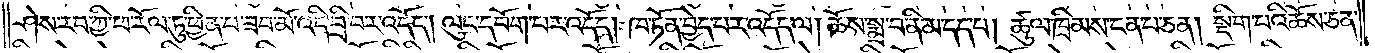ཤེས་རབ་ཀྱི་ཕ་རོལ་ཏུ་ཕྱིན་པ་ཟབ་མོ་འདི་བྲི་བར་འདོད། ལུང་དབོག་པར་འདོད། ཁ་ཏོན་བྱེད་པར་འདོད་ལ། ཆོས་སྨྲ་བ་ནི་མ་དད་པ། ཚུལ་ཁྲིམས་ངན་པ་ཅན། སྡིག་པའི་ཆོས་ཅན་
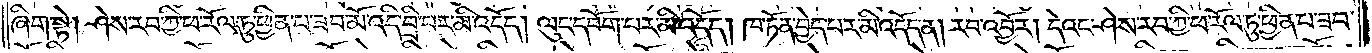ཞིག་སྟེ། ཤེས་རབ་ཀྱི་ཕ་རོལ་ཏུ་ཕྱིན་པ་ཟབ་མོ་འདི་བྲི་བར་མི་འདོད། ལུང་དབོག་པར་མི་འདོད། ཁ་ཏོན་བྱེད་པར་མི་འདོད་ན། རབ་འབྱོར། དེའང་ཤེས་རབ་ཀྱི་ཕ་རོལ་ཏུ་ཕྱིན་པ་ཟབ་
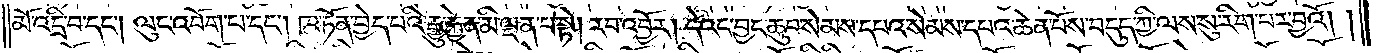མོ་འདྲི་བ་དང༌། ལུང་འབོག་པ་དང༌། ཁ་ཏོན་བྱེད་པའི་རྒྱུ་རྐྱེན་མི་ལྡན་པ་སྟེ། རབ་འབྱོར། དེའང་བྱང་ཆུབ་སེམས་དཔའ་སེམས་དཔའ་ཆེན་པོས་བདུད་ཀྱི་ལུས་སུ་རིག་པར་བྱའོ། །
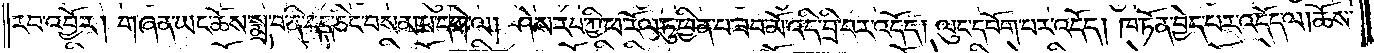རབ་འབྱོར། གཞན་ཡང་ཆོས་སྨྲ་བ་ནི་དད་ཅིང་བསམ་པ་དགེ་ལ། ཤེས་རབ་ཀྱི་ཕ་རོལ་ཏུ་ཕྱིན་པ་ཟབ་མོ་འདི་བྲི་བར་འདོད། ལུང་དབོག་པར་འདོད། ཁ་ཏོན་བྱེད་པར་འདོད་ལ། ཆོས་
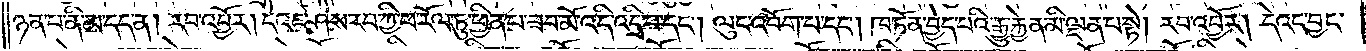ཉན་པ་ནི་མ་དད་ན། རབ་འབྱོར། དེའང་ཤེས་རབ་ཀྱི་ཕ་རོལ་ཏུ་ཕྱིན་པ་ཟབ་མོ་འདི་འདྲི་བ་དང༌། ལུང་འབོག་པ་དང༌། ཁ་ཏོན་བྱེད་པའི་རྒྱུ་རྐྱེན་མི་ལྡན་པ་སྟེ། རབ་འབྱོར། དེའང་བྱང་
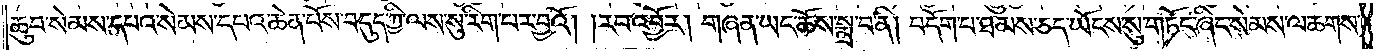ཆུབ་སེམས་དཔའ་སེམས་དཔའ་ཆེན་པོས་བདུད་ཀྱི་ལས་སུ་རིག་པར་བྱའོ། །རབ་འབྱོར། གཞན་ཡང་ཆོས་སྨྲ་བ་ནི། བདོག་པ་ཐམས་ཅད་ཡོངས་སུ་གཏོང་ཞིང་སེམས་ལ་ཆགས་
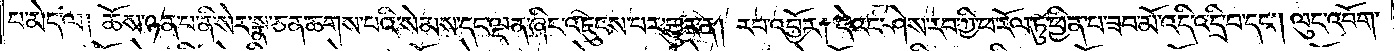པ་མེད་ལ། ཆོས་ཉན་པ་ནི་སེར་སྣ་ཅན་ཆགས་པའི་སེམས་དང་ལྡན་ཞིང་འཇུངས་པར་གྱུར་ན། རབ་འབྱོར། དེའང་ཤེས་རབ་ཀྱི་ཕ་རོལ་ཏུ་ཕྱིན་པ་ཟབ་མོ་འདི་འདྲི་བ་དང༌། ལུང་འབོག་
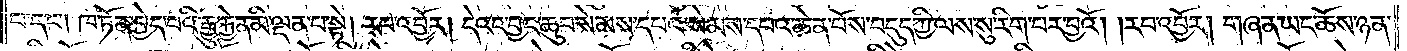པ་དང༌། ཁ་ཏོན་བྱེད་པའི་རྒྱུ་རྐྱེན་མི་ལྡན་པ་སྟེ། རབ་འབྱོར། དེའང་བྱང་ཆུབ་སེམས་དཔའ་སེམས་དཔའ་ཆེན་པོས་བདུད་ཀྱི་ལས་སུ་རིག་པར་བྱའོ། །རབ་འབྱོར། གཞན་ཡང་ཆོས་ཉན་
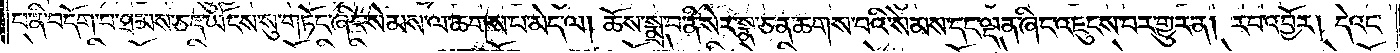པ་ནི་བདོག་པ་ཐམས་ཅད་ཡོངས་སུ་གཏོང་ཞིང་སེམས་ལ་ཆགས་པ་མེད་ལ། ཆོས་སྨྲ་བ་ནི་སེར་སྣ་ཅན་ཆགས་པའི་སེམས་དང་ལྡན་ཞིང་འཇུངས་པར་གྱུར་ན། རབ་འབྱོར། དེའང་
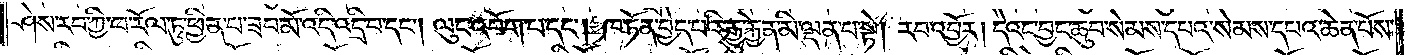ཤེས་རབ་ཀྱི་ཕ་རོལ་ཏུ་ཕྱིན་པ་ཟབ་མོ་འདི་འདྲི་བ་དང༌། ལུང་འབོག་པ་དང༌། ཁ་ཏོན་བྱེད་པའི་རྒྱུ་རྐྱེན་མི་ལྡན་པ་སྟེ། རབ་འབྱོར། དེའང་བྱང་ཆུབ་སེམས་དཔའ་སེམས་དཔའ་ཆེན་པོས་
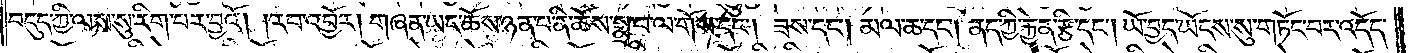བདུད་ཀྱི་ལས་སུ་རིག་པར་བྱའོ། །རབ་འབྱོར། གཞན་ཡང་ཆོས་ཉན་པ་ནི་ཆོས་སྨྲ་བ་ལ་གོས་དང༌། ཟས་དང༌། མལ་ཆ་དང༌། ནད་ཀྱི་རྐྱེན་རྩི་དང༌། ཡོ་བྱད་ཡོངས་སུ་གཏོང་བར་འདོད་
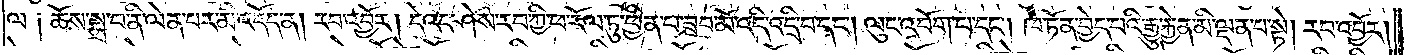ལ༑ ཆོས་སྨྲ་བ་ནི་ལེན་པར་མི་འདོད་ན། རབ་འབྱོར། དེའང་ཤེས་རབ་ཀྱི་ཕ་རོལ་ཏུ་ཕྱིན་པ་ཟབ་མོ་འདི་འདྲི་བ་དང༌། ལུང་འབོག་པ་དང༌། ཁ་ཏོན་བྱེད་པའི་རྒྱུ་རྐྱེན་མི་ལྡན་པ་སྟེ། རབ་འབྱོར།
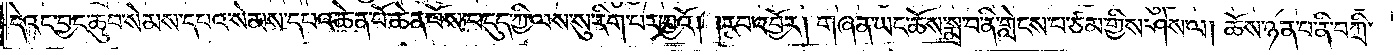དེའང་བྱང་ཆུབ་སེམས་དཔའ་སེམས་དཔའ་ཆེན་པོས་བདུད་ཀྱི་ལས་སུ་རིག་པར་བྱའོ། །རབ་འབྱོར། གཞན་ཡང་ཆོས་སྨྲ་བ་ནི་གླེངས་པ་ཙམ་གྱིས་ཤེས་ལ། ཆོས་ཉན་པ་ནི་བཀྲི་
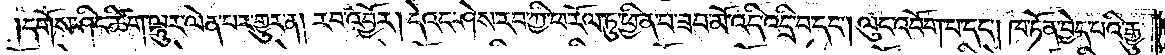དགོས་ཤིང་ཚིག་ལྷུར་ལེན་པར་གྱུར་ན། རབ་འབྱོར། དེའང་ཤེས་རབ་ཀྱི་ཕ་རོལ་ཏུ་ཕྱིན་པ་ཟབ་མོ་འདི་འདྲི་བ་དང༌། ལུང་འབོག་པ་དང༌། ཁ་ཏོན་བྱེད་པའི་རྒྱུ་
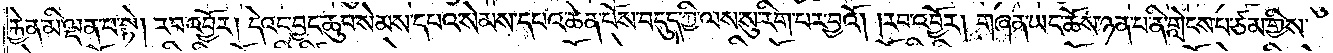རྐྱེན་མི་ལྡན་པ་སྟེ། རབ་འབྱོར། དེའང་བྱང་ཆུབ་སེམས་དཔའ་སེམས་དཔའ་ཆེན་པོས་བདུད་ཀྱི་ལས་སུ་རིག་པར་བྱའོ། །རབ་འབྱོར། གཞན་ཡང་ཆོས་ཉན་པ་ནི་གླེངས་པ་ཙམ་གྱིས་
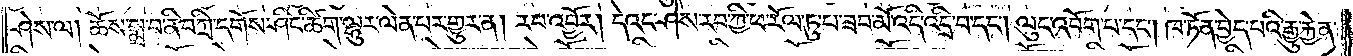ཤེས་ལ། ཆོས་སྨྲ་བ་ནི་བཀྲི་དགོས་ཤིང་ཚིག་ལྷུར་ལེན་པར་གྱུར་ན། རབ་འབྱོར། དེའང་ཤེས་རབ་ཀྱི་ཕ་རོལ་ཏུ་ཕྱིན་པ་ཟབ་མོ་འདི་འདྲི་བ་དང༌། ལུང་འབོག་པ་དང༌། ཁ་ཏོན་བྱེད་པའི་རྒྱུ་རྐྱེན་
